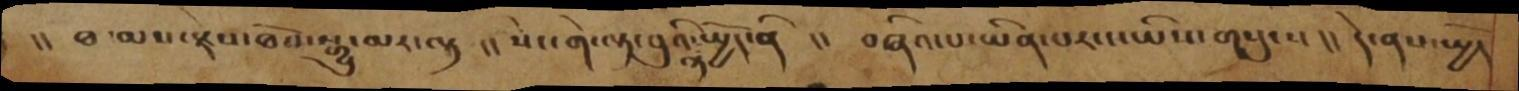།། ཐ་མས་རྗེས་ཐོབ་སྒྱུ་མར་ལྟ །། སེང་གེ་ལྟ་བུའི་ལྟ་སྤྱོད་ནི །། བཞིའ་པ་ཡིན་པར་ང་ཡིས་གསུངས །། དེ་ནས་སྤྱོད་
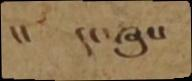།།  དང་ཞུས
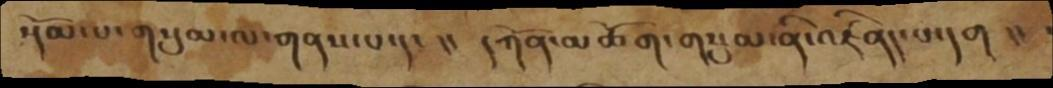སྡོམ་པ་གསུམ་ལ་གནས་པ་དང །། དཀོན་མཆོག་གསུམ་ནི་འཛིནད་པ་དག །།
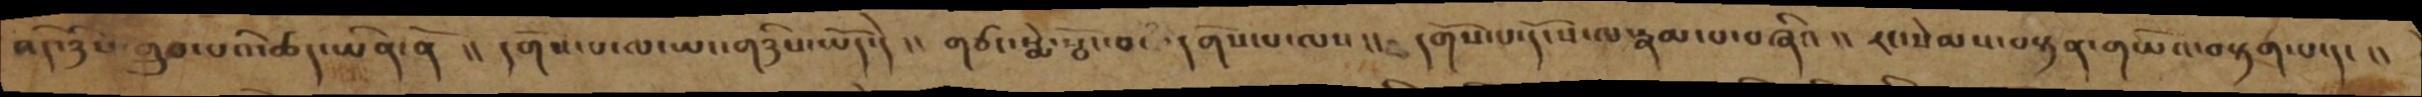འདི་ཉིས་གྲུབ་པའི་ཚད་ཡིན་ནོ །། དགོས་པ་ལ་ཡང་གཉིས་ཡོད་དེ།། གཙང་སྨེ་སྤོང་བ་དགོས་པ་ལས།། དགོས་པ་དངོས་ལ་རྣམ་པ་བཞིའ།། རང་སེམས་བསྟན་གཡོའ་བརྟག་པ་དང།།
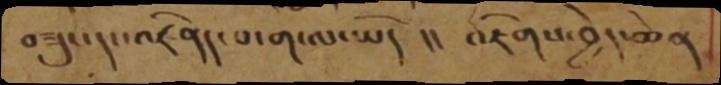བཟུང་དང་འཛིནད་པ་ག་ལ་ཡོད །། འཇིགས་བྱེད་ཆེན
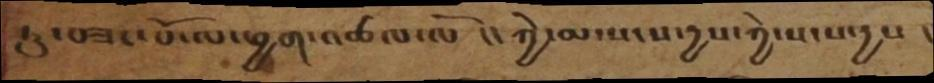ཏུ་བཟང་པོ་ལ་ཕྱག་འཚལ་ལོ །། ཀྱེ་མ་སངས་དྱས་ཀྱེ་སངས་དྱས །
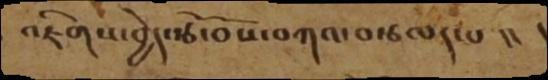འཇིགས་བྱེད་རྩོ་བོས་བཀའ་བརྩལད་པ །།  །
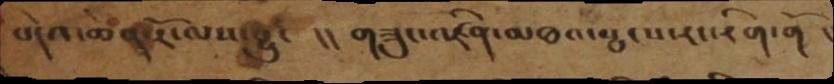བདེའ་ཆེན་རོ་ལས་བྱུང།། གཟུང་འཛིན་མཐའ་སྤངས་རང་རིག་གོ།
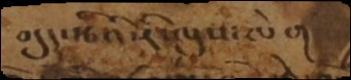བདུད་རྩིའི་རི་ལུས་ལེག
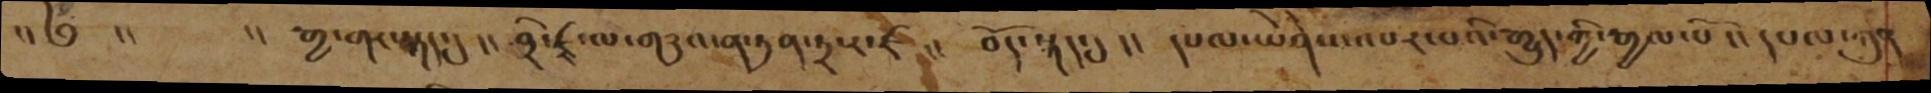།།༄།།   །།རྒྱ་གར་སྐད་དུ།། ཤྲི་ཛྭ་ལ་གཉའ་ན་ཏན་ཏྲ་ར་ཛ།། བོད་སྐད་དུ།། དཔལ་ཡེ་ཤེས་འབར་བའི་རྒྱུད་ཀྱི་རྒྱལ་པོ།། དཔལ་ཀུན
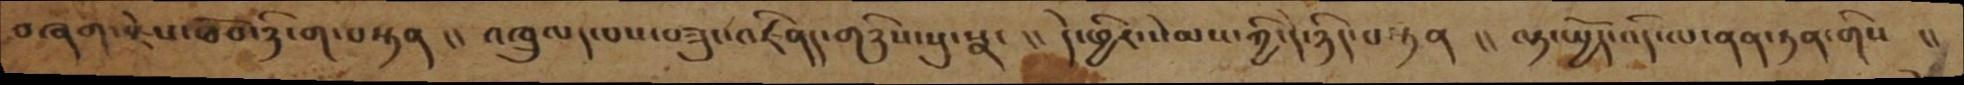བཞག་རྗེས་ཐོབ་ཉི་ག་བསྟན །། འཁྲུལད་པས་བཟུང་འཛིནད་གཉིས་སུ་སྣང །། དེ་ཕྱིར་སེམས་ཀྱི་དེ་ཉིད་བསྟན །། ལྟ་སྤྱོད་འདི་ལ་ནན་ཏན་གིས །།
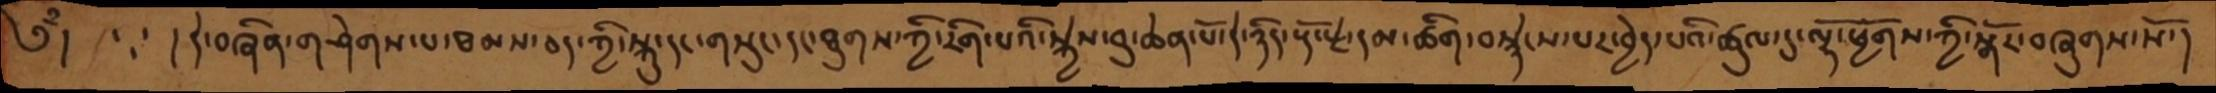༄ྃ།   །དེ་བཞིན་གཤེགས་པཐམས་ཅད་ཀྱི་སྐུ་དང་གསུང་དང་ཐུགས་ཀྱི་རིག་པའི་སྐྱེས་བུ་ཆེན་པོ་དེ་ཉིད་རྡོ་རྗེ་དམ་ཚིག་བསྙེངས་པར་བྱེད་པའི་ཚུལ་དུ་ལྷོ་ཕྱོགས་ཀྱི་སྒོར་བཞུགས་སོ་།
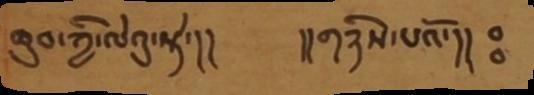ཆུབ་ཀྱི་ལེའུ་སྟེ་།།      །།གཉིས་པའོ་།། ཿ
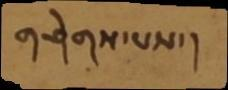གཤེགས་པས་།
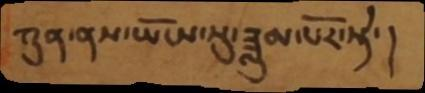ཀུན་ནས་ཡོངས་སུ་ཟླུམ་པོར་སྟེ་།
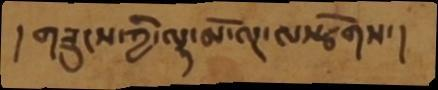། གཟུགས་ཀྱི་ལྷ་མོ་ལྔ་ལསྩོགས་།
